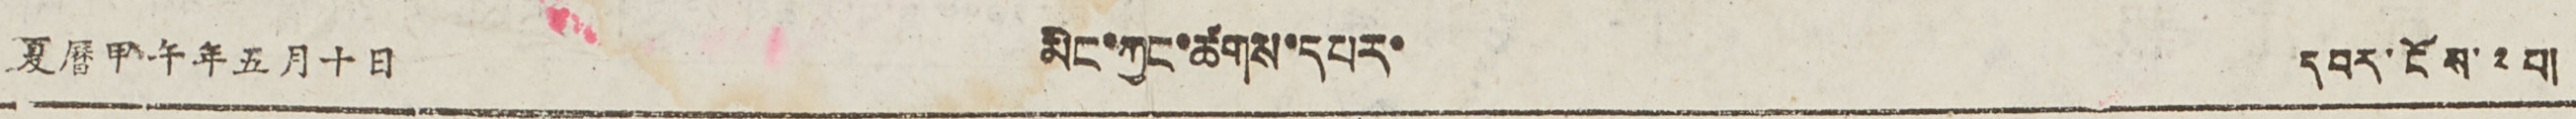夏曆甲午年五月十日 མིང་ཀྱང་ཚགས་དཔར་ དབར་ངོས་ ༢ པ།
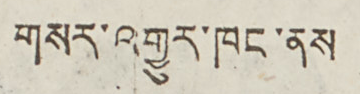གསར་འགྱུར་ཁང་ནས
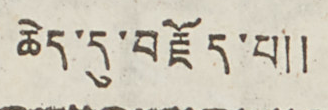ཆེད་དུ་བརྗོད་པ༎
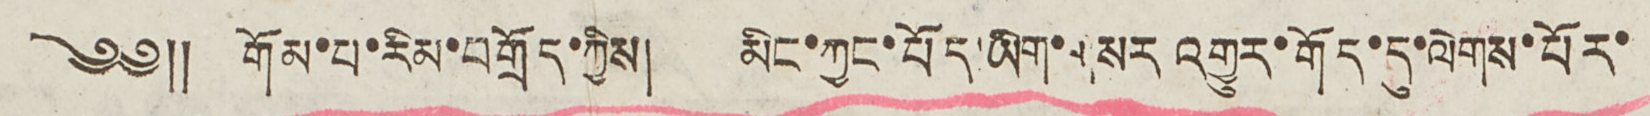༄༅༎ གོམ་པ་རིམ་བགྲོད་ཀྱིས། མིང་ཀྱང་བོད་ཡིག་གསར འགྱུར་གོད་དུ་ལེགས་པོར་
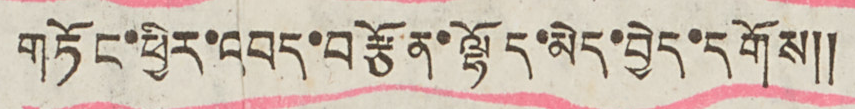གཏོང་ཕྱིར་འབད་བརྩོན་ལྷོད་མེད་བྱེད་དགོས༎
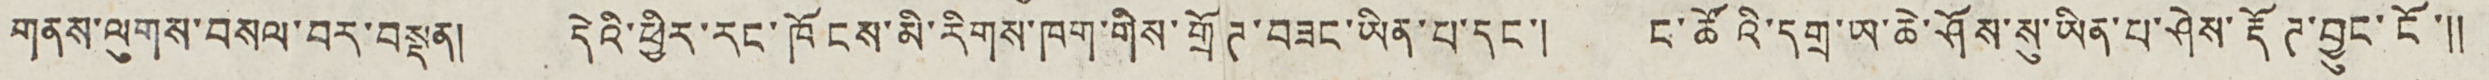གནས་ལུགས་བསལ་བར་བསྡན། དེའི་ཕྱིར་རང་ཁོངས་མི་རིགས་ཁག་གིས་གྲོཊ་བཟང་ཡིན་པ་དང་། ང་ཚོའི་དགྲ་ཡ་ཆེ་ཤོས་སུ་ཡིན་པ་ཤེས་རྡོཊ་བྱུང་ངོ་༎
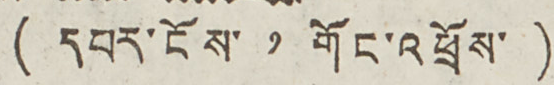( དཔར་ངོས་ ༡ གོང་འཕྲོས་)
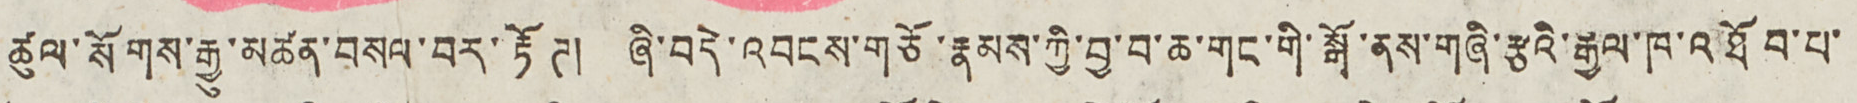ཚུལ་སོགས་རྒྱུ་མཚན་བསལ་བར་རྟོཊ། ཞི་བདེ་འབངས་གཅོ་རྣམས་ཀྱི་བྱ་བ་ཆ་གང་གི་སྒོ་ནས་གཞི་རྩའི་རྒྱལ་ཁ་འཐོབ་པ་
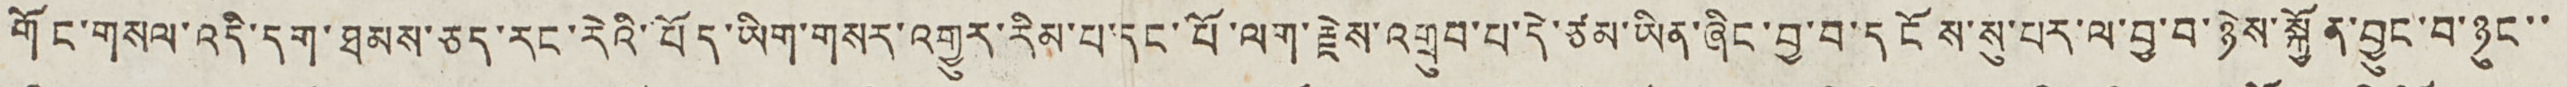གོང་གསལ་འདི་དག་ཐམས་ཅད་རང་རེའི་བོད་ཡིག་གསར་འགྱུར་རིམ་པ་དང་པོ་ལག་རྗེས་འགྲུབ་པ་དེ་ཙམ་ཡིན་ཞིང་བྱ་བ་དངོས་སུ་པར་ལ་བྱ་བ་ཉེས་སྐྱོན་བྱུང་བ་ཉུང་་
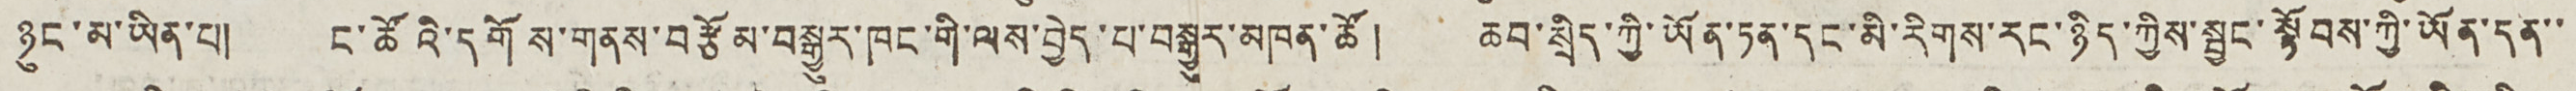ཉུང་མ་ཡིན་པ། ང་ཚོའི་དགོས་གནས་བརྩོམ་བསྒྱུར་ཁང་གི་ལས་བྱེད་པ་བསྒྱུར་མཁན་ཚོ། ཆབ་སྲིད་ཀྱི་ཡོན་ཏན་དང་མི་རིགས་རང་ཉིད་ཀྱིས་སྦྱང་སྟོབས་ཀྱི་ཡོན་དན་་
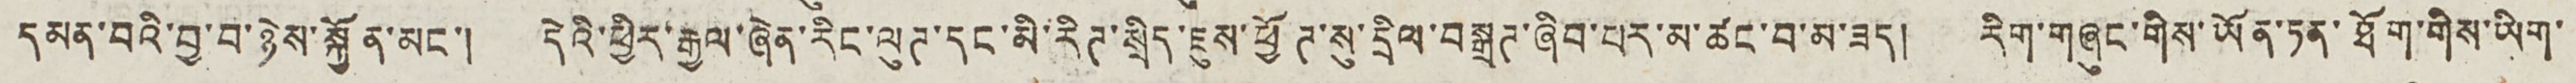དམན་བའི་བྱ་བ་ཉེས་སྐྱོན་མང་། དེའི་ཕྱིར་རྒྱལ་ཞེན་རིང་ལུཊ་དང་མི་རིཊ་སྲིད་ཇུས་ཕྱོཊ་སུ་དྲིལ་བསྒྲཊ་ཞིབ་པར་མ་ཚང་བ་མ་ཟད། རིག་གཞུང་གིས་ཡོན་ཏན་ཐོག་གིས་ཡིག་
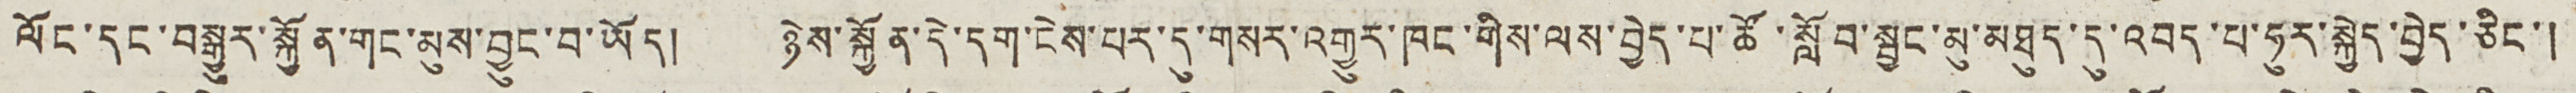ལོང་དང་བསྒྱུར་སྐྱོན་གང་མུས་བྱུང་བ་ཡོད། ཉེས་སྐྱོན་དེ་དག་ངེས་པར་དུ་གསར་འགྱུར་ཁང་གིས་ལས་བྱེད་པ་ཚོ་སློབ་སྦྱང་མུ་མཐུད་དུ་འབད་པ་ཧུར་སྐྱེད་བྱེད་ཅིང་།
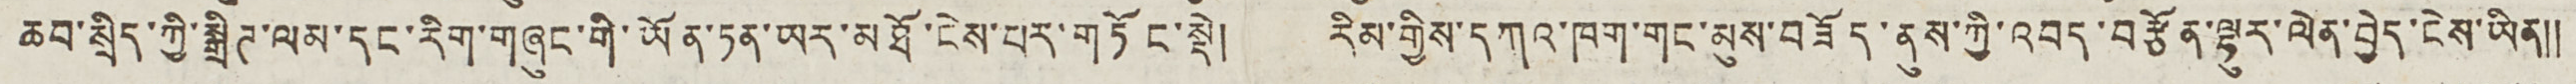ཆབ་སྲིད་ཀྱི་སྒྲིཊ་ལམ་དང་རིག་གཞུང་གི་ཡོན་ཏན་ཡར་མཐོ་ངེས་པར་གཏོང་སྡེ། རིམ་གྱིས་དཀའ་ཁག་གང་མུས་བཟོད་ནུས་ཀྱི་འབད་བརྩོན་ལྷུར་ལེན་བྱེད་ངེས་ཡིན༎
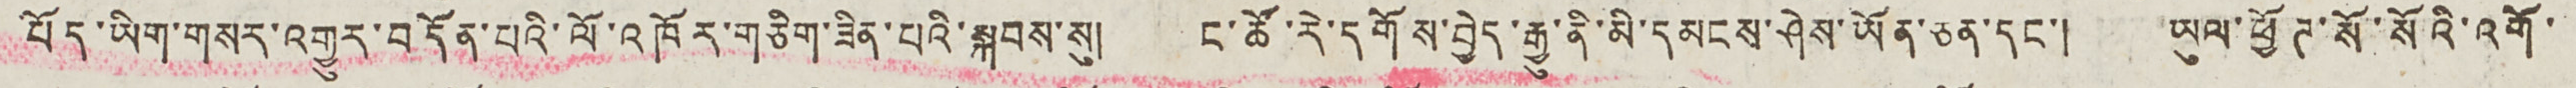པོད་ཡིག་གསར་འགྱུར་བདོན་པའི་ལོ་འཁོར་གཅིག་ཟིན་པའི་སྐབས་སུ། ང་ཚོ་རེ་དགོས་བྱེད་རྒྱུ་ནི་མི་དམངས་ཤེས་ཡོན་ཅན་དང་། ཡུལ་ཕྱོཊ་སོ་སོའི་འགོ་
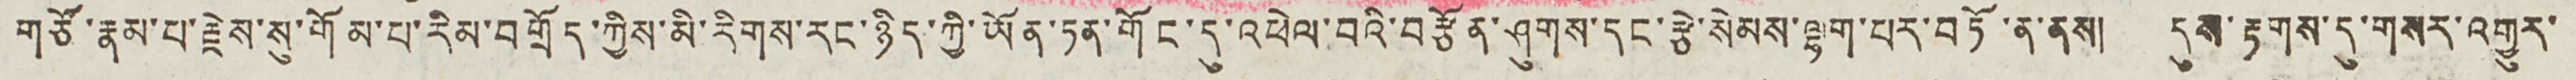གཙོ་རྣམ་པ་རྗེས་སུ་གོམ་པ་རིམ་བགྲོད་ཀྱིས་མི་རིགས་རང་ཉིད་ཀྱི་ཡོན་ཏན་གོང་དུ་འཕེལ་བའི་བརྩོན་ཤུགས་དང་རྩེ་སེམས་ལྷག་པར་བཏོ་ན་ནས། དུས་རྟགས་དུ་གསར་འགྱུར་
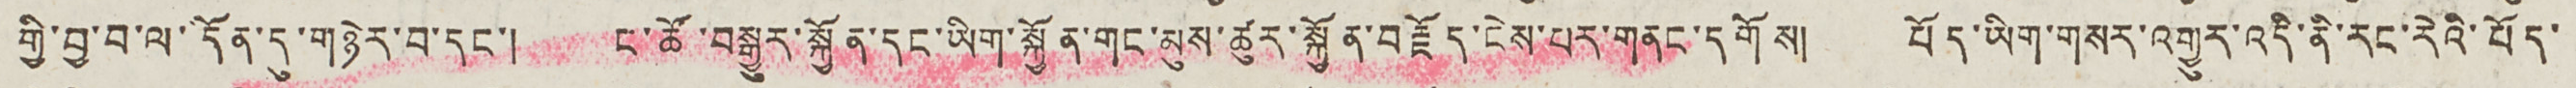གྱི་བྱ་བ་ལ་དོན་དུ་གཉེར་བ་དང་། ང་ཚོ་བསྒྱུར་སྐྱོན་དང་ཡིག་སྐྱོན་གང་མུས་ཚུར་སྐྱོན་བརྗོད་ངེས་པར་གནང་དགོས། པོད་ཡིག་གསར་འགྱུར་འདི་ནི་རང་རེའི་བོད་
